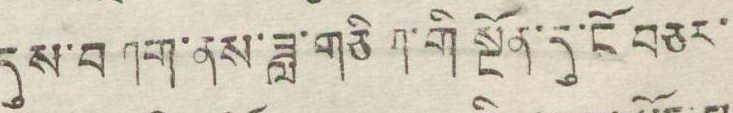དུས་བཤག་ནས་ཟླ་གཅིག་གི་སྔོན་དུ་ངོ་བཅར་
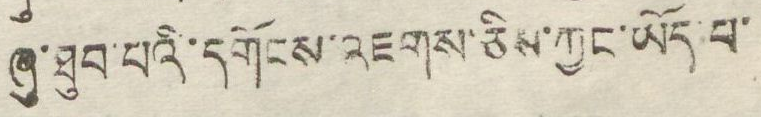ཞུ་ཐུབ་པའི་དགོངས་འཇགས་ཅིས་ཀྱང་ཡོད་པ་
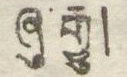ཞུ་རྒྱུ།
